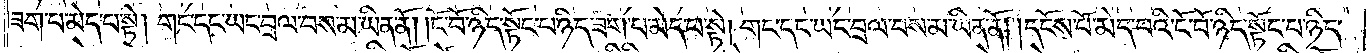ཟག་པ་མེད་པ་སྟེ། གང་དང་ཡང་བྲལ་བས་མ་ཡིན་ནོ། །ངོ་བོ་ཉིད་སྟོང་པ་ཉིད་ཟག་པ་མེད་པ་སྟེ། གང་དང་ཡང་བྲལ་བས་མ་ཡིན་ནོ། །དངོས་པོ་མེད་པའི་ངོ་བོ་ཉིད་སྟོང་པ་ཉིད་
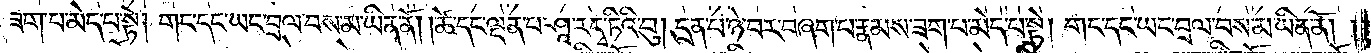ཟག་པ་མེད་པ་སྟེ། གང་དང་ཡང་བྲལ་བས་མ་ཡིན་ནོ། །ཚེ་དང་ལྡན་པ་ཤཱ་ར་དྭ་ཏིའི་བུ། དྲན་པ་ཉེ་བར་བཞག་པ་རྣམས་ཟག་པ་མེད་པ་སྟེ། གང་དང་ཡང་བྲལ་བས་མ་ཡིན་ནོ། །
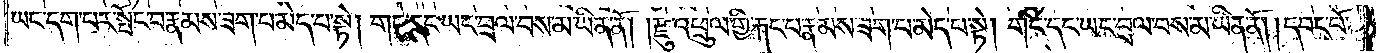ཡང་དག་པར་སྤོང་བ་རྣམས་ཟག་པ་མེད་པ་སྟེ། གང་དང་ཡང་བྲལ་བས་མ་ཡིན་ནོ། །རྫུ་འཕྲུལ་གྱི་རྐང་པ་རྣམས་ཟག་པ་མེད་པ་སྟེ། གང་དང་ཡང་བྲལ་བས་མ་ཡིན་ནོ། །དབང་པོ་
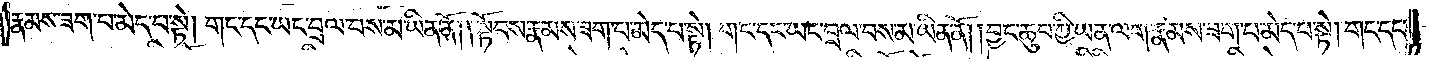རྣམས་ཟག་པ་མེད་པ་སྟེ། གང་དང་ཡང་བྲལ་བས་མ་ཡིན་ནོ། །སྟོབས་རྣམས་ཟག་པ་མེད་པ་སྟེ། གང་དང་ཡང་བྲལ་བས་མ་ཡིན་ནོ། །བྱང་ཆུབ་ཀྱི་ཡན་ལག་རྣམས་ཟག་པ་མེད་པ་སྟེ། གང་དང་
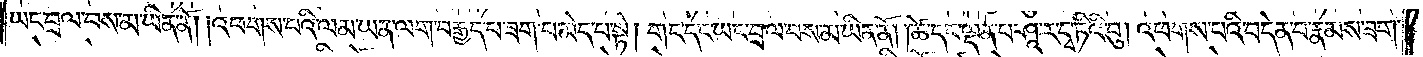ཡང་བྲལ་བས་མ་ཡིན་ནོ། །འཕགས་པའི་ལམ་ཡན་ལག་བརྒྱད་པ་ཟག་པ་མེད་པ་སྟེ། གང་དང་ཡང་བྲལ་བས་མ་ཡིན་ནོ། །ཚེ་དང་ལྡན་པ་ཤཱ་ར་དྭ་ཏིའི་བུ། འཕགས་པའི་བདེན་པ་རྣམས་ཟག་
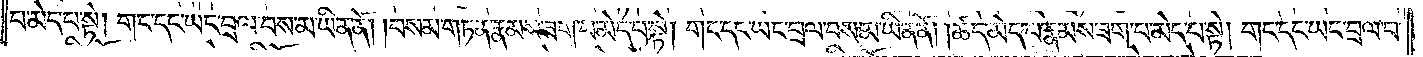པ་མེད་པ་སྟེ། གང་དང་ཡང་བྲལ་བས་མ་ཡིན་ནོ། །བསམ་གཏན་རྣམས་ཟག་པ་མེད་པ་སྟེ། གང་དང་ཡང་བྲལ་བས་མ་ཡིན་ནོ། །ཚད་མེད་པ་རྣམས་ཟག་པ་མེད་པ་སྟེ། གང་དང་ཡང་བྲལ་བ་
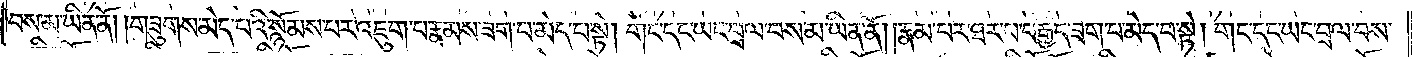བས་མ་ཡིན་ནོ། །གཟུགས་མེད་པའི་སྙོམས་པར་འཇུག་པ་རྣམས་ཟག་པ་མེད་པ་སྟེ། གང་དང་ཡང་བྲལ་བས་མ་ཡིན་ནོ། །རྣམ་པ་ཐར་པའི་བརྒྱད་ཟག་པ་མེད་པ་སྟེ། གང་ཡང་བྲལ་བས་
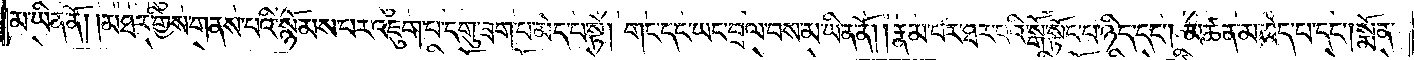མ་ཡིན་ནོ། །མཐར་གྱིས་གནས་པའི་སྙོམས་པར་འཇུག་པ་དགུ་ཟག་པ་མེད་པ་སྟེ། གང་དང་ཡང་བྲལ་བས་མ་ཡིན་ནོ། །རྣམ་པར་ཐར་པའི་སྒོ་སྟོང་པ་ཉིད་དང༌། མཚན་མ་མེད་པ་དང༌། སྨོན་
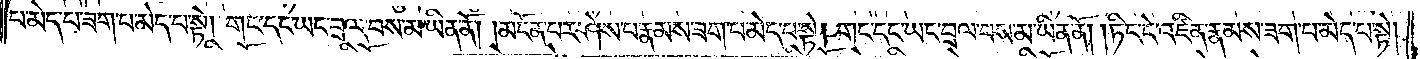པ་མེད་པ་ཟག་པ་མེད་པ་སྟེ། གང་དང་ཡང་བྲལ་བས་མ་ཡིན་ནོ། །མངོན་པར་ཤེས་པ་རྣམས་ཟག་པ་མེད་པ་སྟེ། གང་དང་ཡང་བྲལ་བས་མ་ཡིན་ནོ། །ཏིང་ངེ་འཛིན་རྣམས་ཟག་པ་མེད་པ་སྟེ།
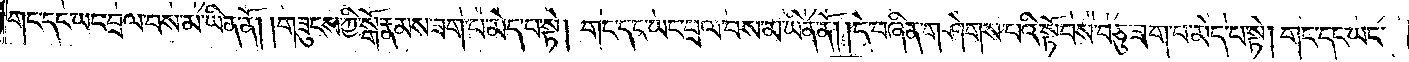གང་དང་ཡང་བྲལ་བས་མ་ཡིན་ནོ། །གཟུངས་ཀྱི་སྒོ་རྣམས་ཟག་པ་མེད་པ་སྟེ། གང་དང་ཡང་བྲལ་བས་མ་ཡིན་ནོ། །དེ་བཞིན་གཤེགས་པའི་སྟོབས་བཅུ་ཟག་པ་མེད་པ་སྟེ། གང་དང་ཡང་
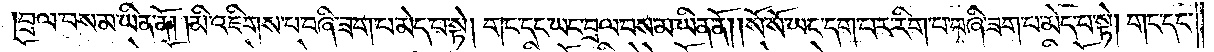བྲལ་བས་མ་ཡིན་ནོ། །མི་འཇིགས་པ་བཞི་ཟག་པ་མེད་པ་སྟེ། གང་དང་ཡང་བྲལ་བས་མ་ཡིན་ནོ། །སོ་སོ་ཡང་དག་པར་རིག་པ་བཞི་ཟག་པ་མེད་པ་སྟེ། གང་དང་
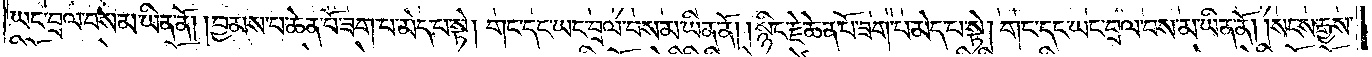ཡང་བྲལ་བས་མ་ཡིན་ནོ། །བྱམས་པ་ཆེན་པོ་ཟག་པ་མེད་པ་སྟེ། གང་དང་ཡང་བྲལ་བས་མ་ཡིན་ནོ། །སྙིང་རྗེ་ཆེན་པོ་ཟག་པ་མེད་པ་སྟེ། གང་དང་ཡང་བྲལ་བས་མ་ཡིན་ནོ། །སངས་རྒྱས་
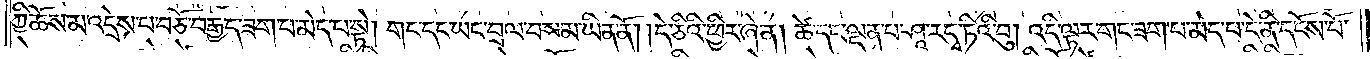ཀྱི་ཆོས་མ་འདྲེས་པ་བཅོ་བརྒྱད་ཟག་པ་མེད་པ་སྟེ། གང་དང་ཡང་བྲལ་བས་མ་ཡིན་ནོ། །དེ་ཅིའི་ཕྱིར་ཞེ་ན། ཚེ་དང་ལྡན་པ་ཤཱ་ར་དྭ་ཏིའི་བུ། འདི་ལྟར་གང་ཟག་པ་མེད་པ་དེ་ནི་དངོས་པོ་
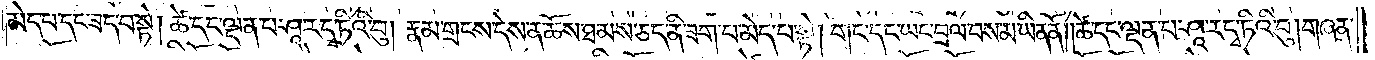མེད་པ་དང་ཟད་པ་སྟེ། ཚེ་དང་ལྡན་པ་ཤཱ་ར་དྭ་ཏིའི་བུ། རྣམ་གྲངས་དེས་ན་ཆོས་ཐམས་ཅད་ནི་ཟག་པ་མེད་པ་སྟེ། གང་དང་ཡང་བྲལ་བས་མ་ཡིན་ནོ། །ཚེ་དང་ལྡན་པ་ཤཱ་ར་དྭ་ཏིའི་བུ། གཞན་
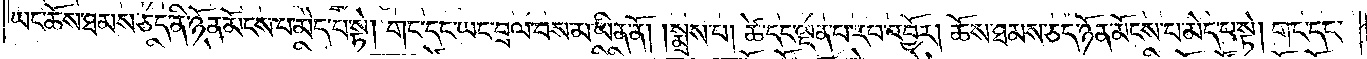ཡང་ཆོས་ཐམས་ཅད་ནི་ཉོན་མོངས་པ་མེད་པ་སྟེ། གང་དང་ཡང་བྲལ་བས་མ་ཡིན་ནོ། །སྨྲས་པ། ཚེ་དང་ལྡན་པ་རབ་འབྱོར། ཆོས་ཐམས་ཅད་ཉོན་མོངས་པ་མེད་པ་སྟེ། གང་དང་
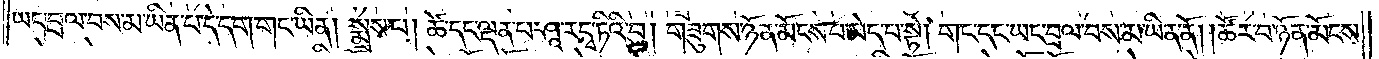ཡང་བྲལ་བས་མ་ཡིན་པ་དེ་དག་གང་ཡིན། སྨྲས་པ། ཚེ་དང་ལྡན་པ་ཤཱ་ར་དྭ་ཏིའི་བུ། གཟུགས་ཉོན་མོངས་པ་མེད་པ་སྟེ། གང་དང་ཡང་བྲལ་བས་མ་ཡིན་ནོ། །ཚོར་བ་ཉོན་མོངས་
